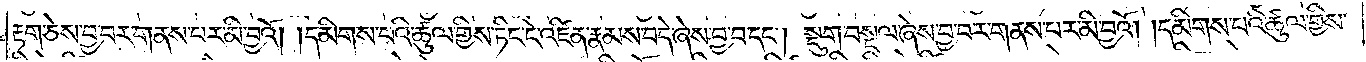རྟག་ཅེས་བྱ་བར་གནས་པར་མི་བྱའོ། །དམིགས་པའི་ཚུལ་གྱིས་ཏིང་ངེ་འཛིན་རྣམས་བདེ་ཞེས་བྱ་བ་དང༌། སྡུག་བསྔལ་ཞེས་བྱ་བར་གནས་པར་མི་བྱའོ། །དམིགས་པའི་ཚུལ་གྱིས་
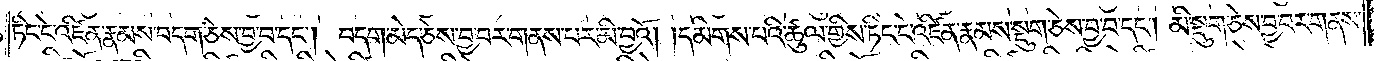ཏིང་ངེ་འཛིན་རྣམས་བདག་ཅེས་བྱ་བ་དང༌། བདག་མེད་ཅེས་བྱ་བར་གནས་པར་མི་བྱའོ། །དམིགས་པའི་ཚུལ་གྱིས་ཏིང་ངེ་འཛིན་རྣམས་སྡུག་ཅེས་བྱ་བ་དང༌། མི་སྡུག་ཅེས་བྱ་བར་གནས་
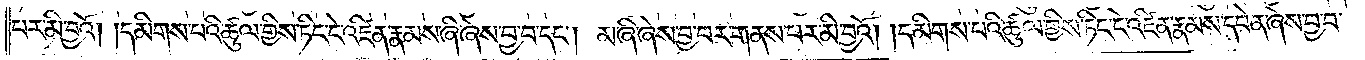པར་མི་བྱའོ། །དམིགས་པའི་ཚུལ་གྱིས་ཏིང་ངེ་འཛིན་རྣམས་ཞི་ཞེས་བྱ་བ་དང༌། མ་ཞི་ཞེས་བྱ་བར་གནས་པར་མི་བྱའོ། །དམིགས་པའི་ཚུལ་གྱིས་ཏིང་ངེ་འཛིན་རྣམས་དབེན་ཞེས་བྱ་བ་
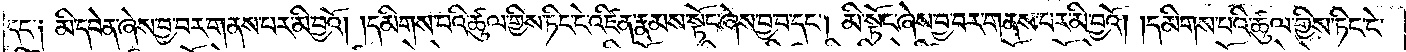དང༌༑ མི་དབེན་ཞེས་བྱ་བར་གནས་པར་མི་བྱའོ། །དམིགས་པའི་ཚུལ་གྱིས་ཏིང་ངེ་འཛིན་རྣམས་སྟོང་ཞེས་བྱ་བ་དང༌། མི་སྟོང་ཞེས་བྱ་བར་གནས་པར་མི་བྱའོ། །དམིགས་པའི་ཚུལ་གྱིས་ཏིང་ངེ་
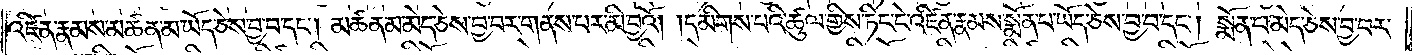འཛིན་རྣམས་མཚན་མ་ཡོད་ཅེས་བྱ་བ་དང༌། མཚན་མ་མེད་ཅེས་བྱ་བར་གནས་པར་མི་བྱའོ། །དམིགས་པའི་ཚུལ་གྱིས་ཏིང་ངེ་འཛིན་རྣམས་སྨོན་པ་ཡོད་ཅེས་བྱ་བ་དང༌། སྨོན་པ་མེད་ཅེས་བྱ་བར་
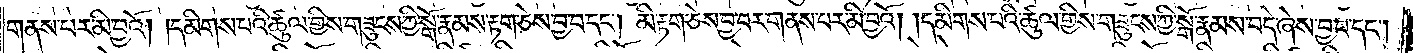གནས་པར་མི་བྱའོ། །དམིགས་པའི་ཚུལ་གྱིས་གཟུངས་ཀྱི་སྒོ་རྣམས་རྟག་ཅེས་བྱ་བ་དང༌། མི་རྟག་ཅེས་བྱ་བར་གནས་པར་མི་བྱའོ། །དམིགས་པའི་ཚུལ་གྱིས་གཟུངས་ཀྱི་སྒོ་རྣམས་བདེ་ཞེས་བྱ་བ་དང༌།
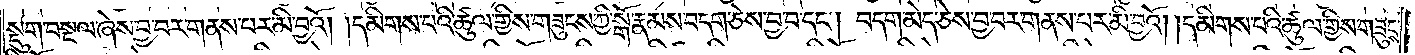སྡུག་བསྔལ་ཞེས་བྱ་བར་གནས་པར་མི་བྱའོ། །དམིགས་པའི་ཚུལ་གྱིས་གཟུངས་ཀྱི་སྒོ་རྣམས་བདག་ཅེས་བྱ་བ་དང༌། བདག་མེད་ཅེས་བྱ་བར་གནས་པར་མི་བྱའོ། །དམིགས་པའི་ཚུལ་གྱིས་གཟུངས་
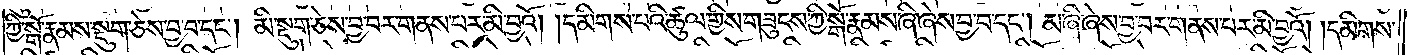ཀྱི་སྒོ་རྣམས་སྡུག་ཅེས་བྱ་བ་དང༌། མི་སྡུག་ཅེས་བྱ་བར་གནས་པར་མི་བྱའོ། །དམིགས་པའི་ཚུལ་གྱིས་གཟུངས་ཀྱི་སྒོ་རྣམས་ཞི་ཞེས་བྱ་བ་དང༌། མ་ཞི་ཞེས་བྱ་བར་གནས་པར་མི་བྱའོ། །དམིགས་
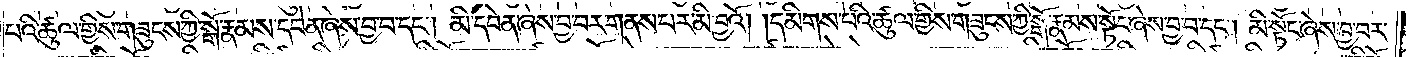པའི་ཚུལ་གྱིས། གཟུངས་ཀྱི་སྒོ་རྣམས་དབེན་ཞེས་བྱ་བ་དང༌། མི་དབེན་ཞེས་བྱ་བར་གནས་པར་མི་བྱའོ། །དམིགས་པའི་ཚུལ་གྱིས་གཟུངས་ཀྱི་སྒོ་རྣམས་སྟོང་ཞེས་བྱ་བ་དང༌། མི་སྟོང་ཞེས་བྱ་བར་
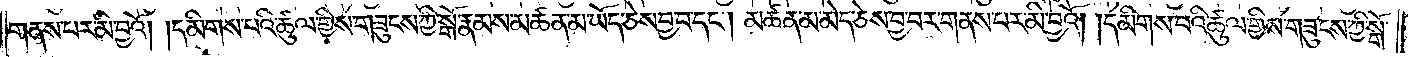གནས་པར་མི་བྱའོ། །དམིགས་པའི་ཚུལ་གྱིས་གཟུངས་ཀྱི་སྒོ་རྣམས་མཚན་མ་ཡོད་ཅེས་བྱ་བ་དང༌། མཚན་མ་མེད་ཅེས་བྱ་བར་གནས་པར་མི་བྱའོ། །དམིགས་པའི་ཚུལ་གྱིས་གཟུངས་ཀྱི་སྒོ་
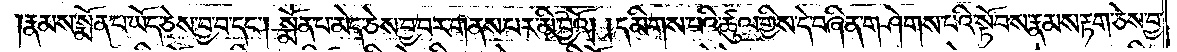།རྣམས་སྨོན་པ་ཡོད་ཅེས་བྱ་བ་དང༌། སྨོན་པ་མེད་ཅེས་བྱ་བར་གནས་པར་མི་བྱའོ། །དམིགས་པའི་ཚུལ་གྱིས་དེ་བཞིན་གཤེགས་པའི་སྟོབས་རྣམས་རྟག་ཅེས་བྱ་
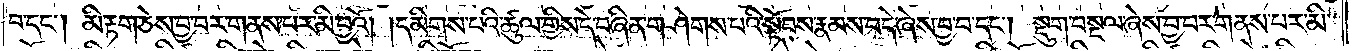བ་དང༌། མི་རྟག་ཅེས་བྱ་བར་གནས་པར་མི་བྱའོ། །དམིགས་པའི་ཚུལ་གྱིས་དེ་བཞིན་གཤེགས་པའི་སྟོབས་རྣམས་བདེ་ཞེས་བྱ་བ་དང༌། སྡུག་བསྔལ་ཞེས་བྱ་བར་གནས་པར་མི་
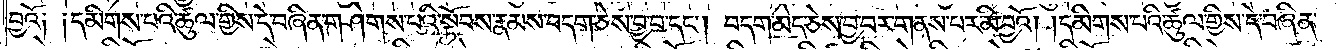བྱའོ༏ ༏དམིགས་པའི་ཚུལ་གྱིས་དེ་བཞིན་གཤེགས་པའི་སྟོབས་རྣམས་བདག་ཅེས་བྱ་བ་དང༌། བདག་མེད་ཅེས་བྱ་བར་གནས་པར་མི་བྱའོ། །དམིགས་པའི་ཚུལ་གྱིས་དེ་བཞིན་
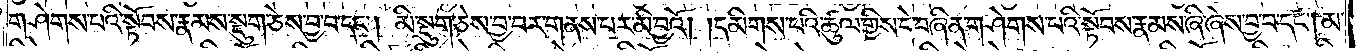གཤེགས་པའི་སྟོབས་རྣམས་སྡུག་ཅེས་བྱ་བ་དང༌། མི་སྡུག་ཅེས་བྱ་བར་གནས་པར་མི་བྱའོ། །དམིགས་པའི་ཚུལ་གྱིས་དེ་བཞིན་གཤེགས་པའི་སྟོབས་རྣམས་ཞི་ཞེས་བྱ་བ་དང༌། མ་
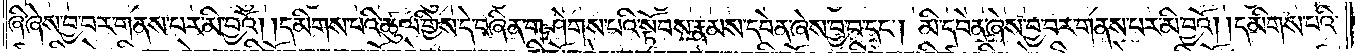ཞི་ཞེས་བྱ་བར་གནས་པར་མི་བྱའོ། །དམིགས་པའི་ཚུལ་གྱིས་དེ་བཞིན་གཤེགས་པའི་སྟོབས་རྣམས་དབེན་ཞེས་བྱ་བ་དང༌། མི་དབེན་ཞེས་བྱ་བར་གནས་པར་མི་བྱའོ། །དམིགས་པའི་
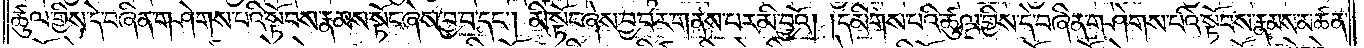ཚུལ་གྱིས་དེ་བཞིན་གཤེགས་པའི་སྟོབས་རྣམས་སྟོང་ཞེས་བྱ་བ་དང༌། མི་སྟོང་ཞེས་བྱ་བར་གནས་པར་མི་བྱའོ། །དམིགས་པའི་ཚུལ་གྱིས་དེ་བཞིན་གཤེགས་པའི་སྟོབས་རྣམས་མཚན་
